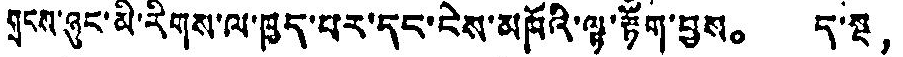གྲངས་ཉུང་མི་རིགས་ལ་ཁྱད་པར་དང་ངེས་མཁོའི་ལྟ་རྟོག་བྱས。 ད་སྔ，
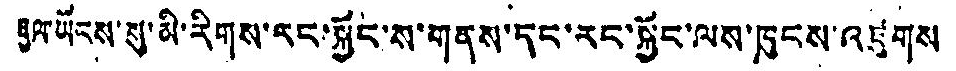རྒྱལ་ཡོངས་སུ་མི་རིགས་རང་སྐྱོང་ས་གནས་དང་རང་སྐྱོང་ལས་ཁུངས་འཛུགས
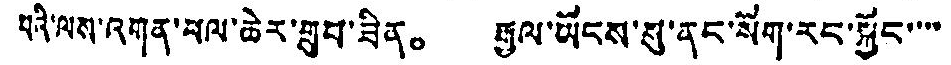པའི་ལས་འགན་ཕལ་ཆེར་གྲུབ་ཟིན。 རྒྱལ་ཡོངས་སུ་ནང་སོག་རང་སྐྱོང་་་་
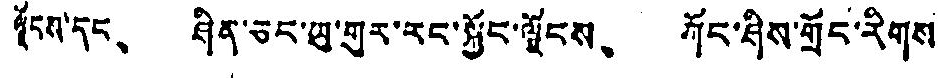ལྗོངས་དང、 ཤིན་ཅང་ཡུ་གུར་རང་སྐྱོང་ལྗོངས、 ཀོང་ཤིས་གྲོང་རིགས
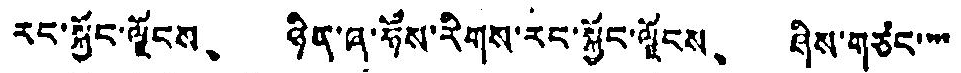རང་སྐྱོང་ལྗོངས、 ཉིན་ཞ་ཧོས་རིགས་རང་སྐྱོང་ལྗོངས、 ཤིས་གཙང་་་་
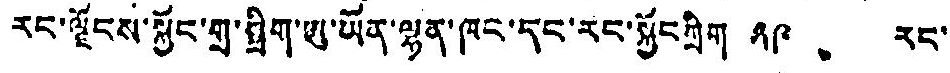རང་ལྗོངས་སྐྱོང་གྲ་སྒྲིག་ཨུ་ཡོན་ལྷན་ཁང་དང་རང་སྐྱོང་ཀྲིག ༢༩、 རང་
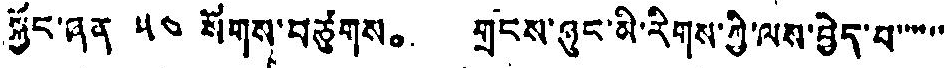སྐྱོང་ཞན ༥༠ སོགས་བཙུགས གྲངས་ཉུང་མི་རིགས་ཀྱི་ལས་བྱེད་པ་་་་་་
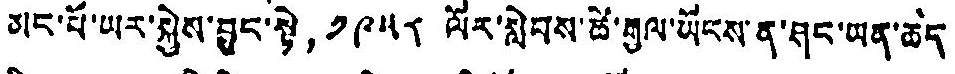མང་པོ་ཡར་སྐྱེས་བྱུང་སྟེ， ༡༩༥༨ ལོར་སླེབས་ཚེ་རྒྱལ་ཡོངས་ན་ཤང་ཡན་ཆད།
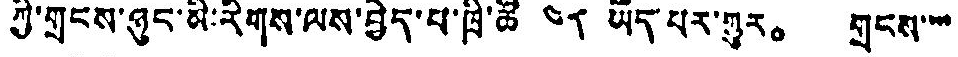ཀྱི་གྲངས་ཉུང་མི་རིགས་ལས་བྱེད་པ་ཁྲི་ཚོ ༤༨ ཡོད པར་གྱུར。 གྲངས་་་་
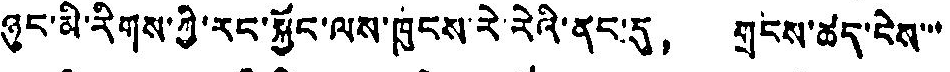ཉུང་མི་རིགས་ཀྱི་རང་སྐྱོང་ལས་ཁུངས་རེ་རེའི་ནང་དུ， གྲངས་ཚད་ངེས་་་
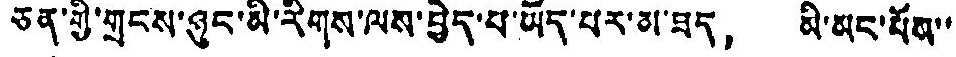ཅན་གྱི་གྲངས་ཉུང་མི་རིགས་ལས་བྱེད་པ་ཡོད་པར་མ་ཟད， མི་མང་པོས་་
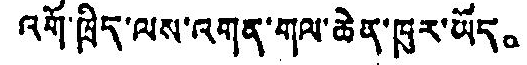འགོ་ཁྲིད་ལས་འགན་གལ་ཆེན་ཁུར་ཡོད。
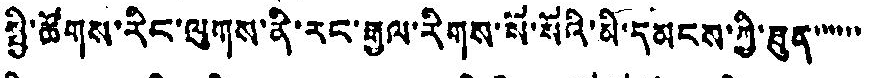སྤྱི་ཚོགས་རིང་ལུགས་ནི་རང་རྒྱལ་རིགས་སོ་སོའི་མི་དམངས་ཀྱི་ཐུན་་་་་་
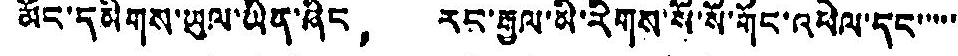མོང་དམིགས་ཡུལ་ཡིན་ཞིང， རང་རྒྱལ་མི་རིགས་སོ་སོ་གོང་འཕེལ་དང་་་་་
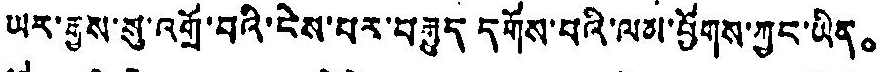ཡར་རྒྱས་སུ་འགྲོ་བའི་ངེས་པར་བརྒྱུད དགོས་པའི་ལམ་ཕྱོགས་ཀྱང་ཡིན。
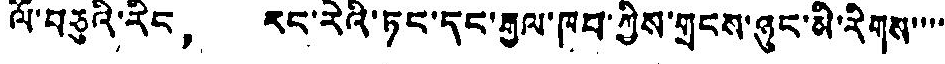ལོ་བཅུའི་རིང， རང་རེའི་ཏང་དང་རྒྱལ་ཁབ་ཀྱིས་གྲངས་ཉུང་མི་རིགས་་་་
